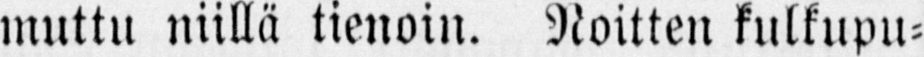muttu niillä tienoin. Noitten kulkupu-
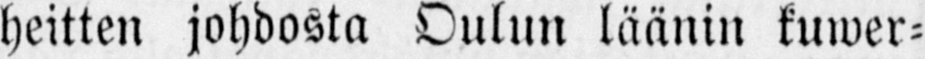heitten johdosta Oulun läänin kuwer-
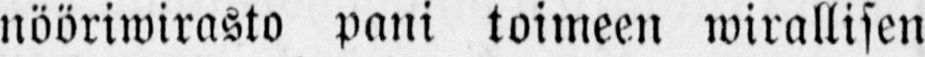nööriwirasto pani toimeen wirallisen
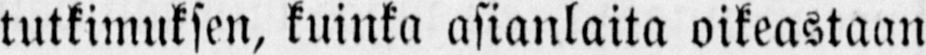tutkimuksen, kuinka asianlaita oikeastaan
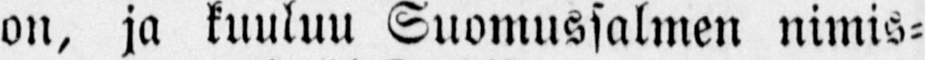on, ja kuuluu Suomussalmen nimis-
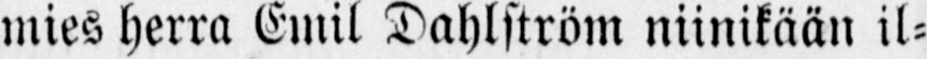mies herra Emil Dahlström niinikään il-
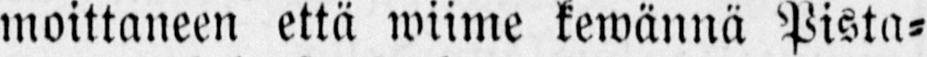moittaneen että wiine kewännä Pista-
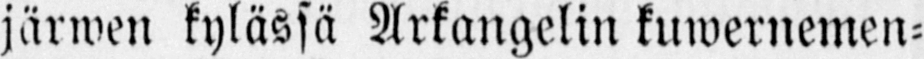järwen kylässä Arkangelin kuwernemen-
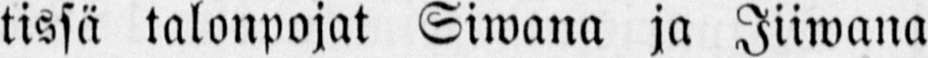tissä talonpojat Siwana ja Jiiwana
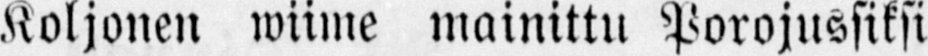Koljonen wiime mainittu Porojussiksi
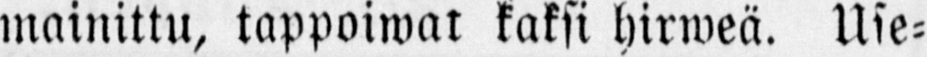mainittu, tappoiwat kaksi hirweä. Use-
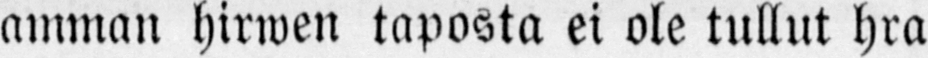amman hirwen taposta ei ole tullut hra
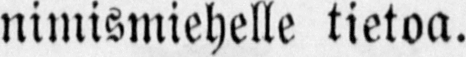nimismiehelle tietoa.
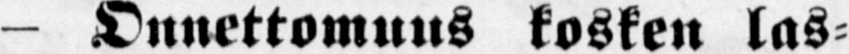— Onnettomuus kosken las-
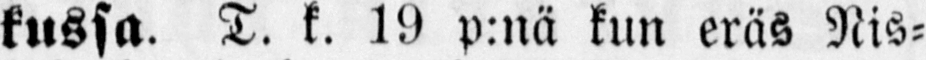kussa. T. k. 19 p:nä kun eräs Nis-
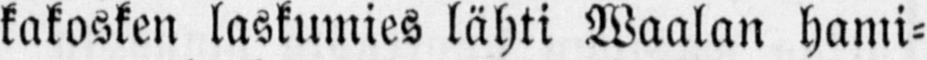kakosken laskumies lähti Waalan Hami-
